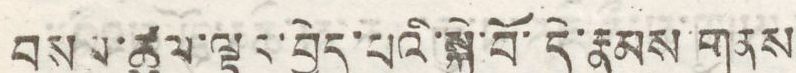བསམ་ཚུལ་ལྟར་བྱེད་པའི་སྐྱེ་བོ་དེ་རྣམས གནས
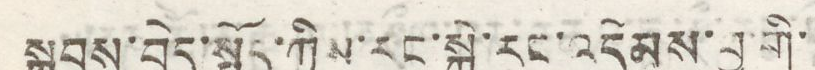སྐབས་བདེ་སྤྱོད་ཀྱིས་རང་སྐེ་རང་འདེབས་བྱ་གི་
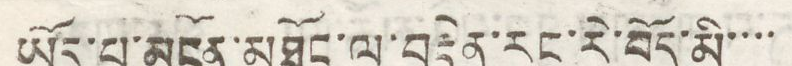ཡོད་པ་མངོན་མཐོང་ལ་བརྟེན་རང་རེ་བོད་མི་་་་
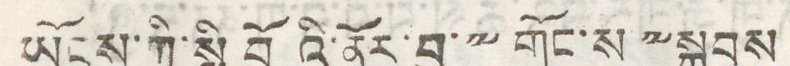ཡོངས་ཀྱི་སྤྱི བོའི་ནོར་བུ་༸གོང་ས་༸སྐྱབས
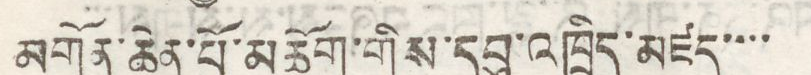མགོན་ཆེན་པོ་མཆོག་གིས་དབུ་འཁྲིད་མཛད་་་་
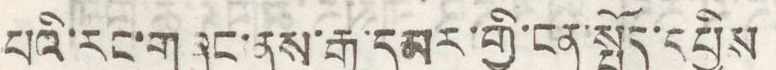པའི་རང་གཞུང་ནས་རྒྱ་དམར་གྱི་ངན་སྤྱོད་དཔྱིས
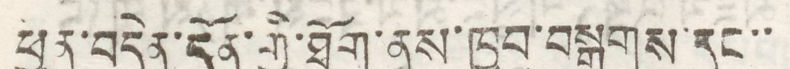ཕྱན་བདེན་དོན་གྱི་ཐོག་ནས་ཁྱབ་བསྒྲགས་དང་་
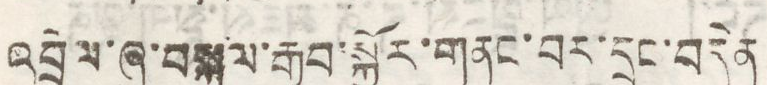འབྲེལ་ཞུ་བསྐུལ་རྒྱབ་སྐྱོར་གནག་བར་དྲང་བདེན
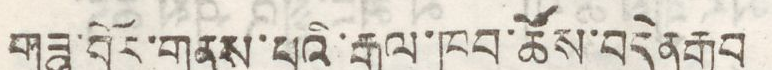གཟུ་བོར་གནས་པའི་རྒྱལ་ཁབ་ཚོས་བདེན རྒྱབ
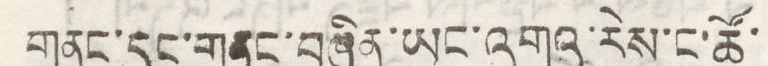གནང་དང་གནང་བཞིན་ཡང་འགའ་རེས་ང་ཚོ་
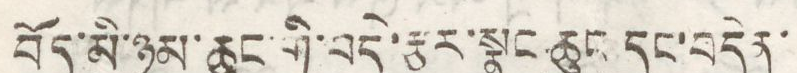བོད་མི་ཉམ་ཆུང་གི་བདེ་རྩར་སྣང ཆུང དང་བདེན་
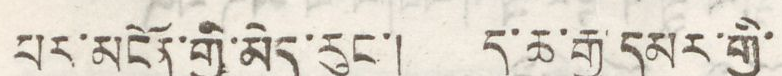པར་མངོན་གྱི་མེད་རུང་། ད་ཆ་རྒྱ་དམར་གྱི་
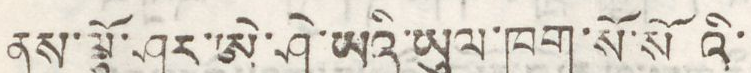ནས་ལྷོ་ཤར་ཨེ་ཤེ་ཨའི་ཡུལ་ཁག་སོ་སོའི་
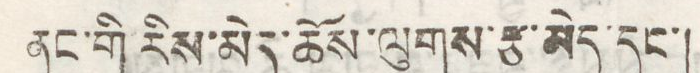ནང་གི རིས་མེད་ཆོས་ལུགས་རྩ་མེད་དང་།
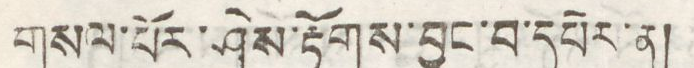གསལ་པོར་ཤེས་རྟོགས་བྱུང་བ་དཔེར་ན།
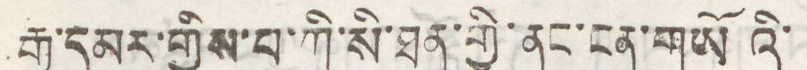རྒྱ་དམར་གྱིས་པ་ཀི་སི་ཐན་གྱི་ནང་གཡོའི་
